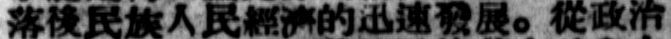落後民族人民經濟的迅速發展。從政治
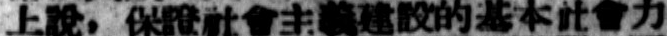上說，保證社會主義建設的基本社會力
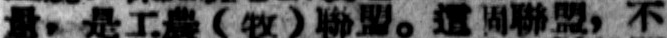量，是工農（牧）聯盟。這個聯盟，不
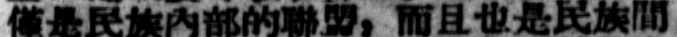僅是民族內部的聯盟，而且也是民族間
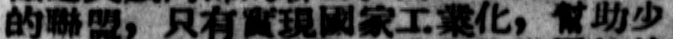的聯盟，只有實現國家工業化，幫助少
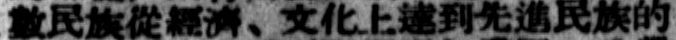數民族從經濟、文化上達到先進民族的
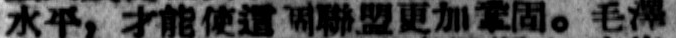水平，才能使這個聯盟更加鞏固。毛澤
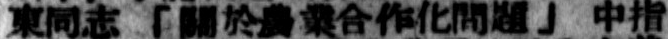東同志「關於羣衆合作化問題」中指
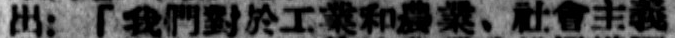出：「我們對於工業和農業、社會主義
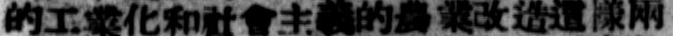的工業化和社會主義的農業改造這樣兩
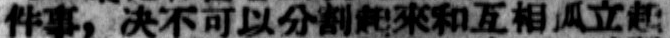件事，决不可以分割起來和互相孤立起
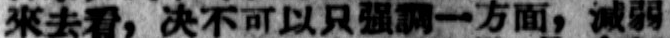來去看，决不可以只強調一方面，減弱
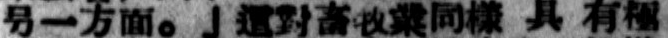另一方面。」這對畜牧業同樣 具 有極
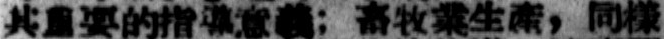其重要的指導意義：畜牧業生產，同樣
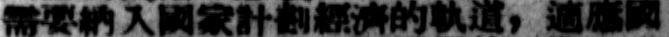需要納入國家計劃經濟的軌道，適應國
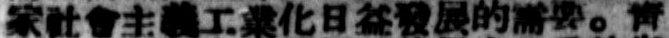家社會主義工業化日益發展的需要。青
